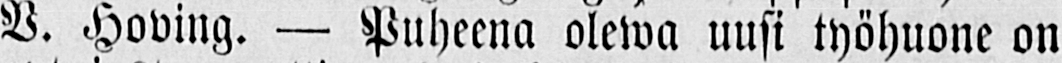V. Hoving. — Puheena olewa uusi työhuone on
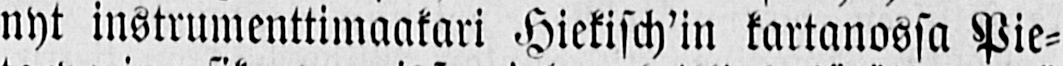nyt instrumenttimaakari Hiekisch'in kartanossa Pie-
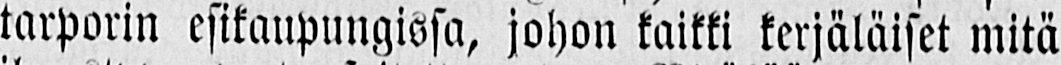tarporin esikaupungissa, johon kaikki kerjäläiset mitä
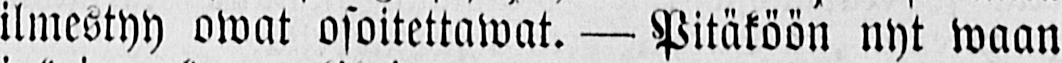ilmestyy owat osoitettawat. — Pitäköön nyt waan
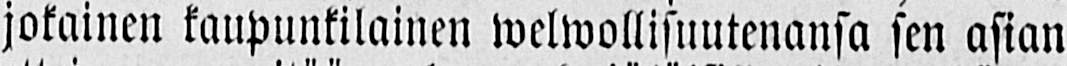jokainen kaupunkilainen welwollisuutenansa sen asian
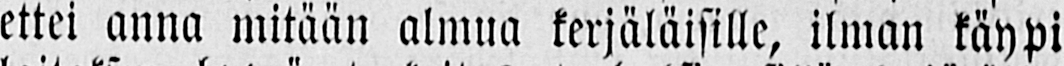ettei anna mitään almua kerjäläisille, ilman käypi
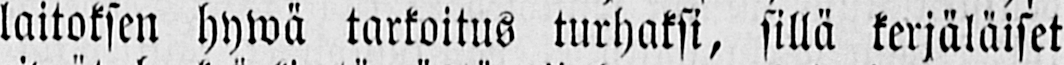laitoksen hywä tarkoitus turhaksi, sillä kerjäläiset
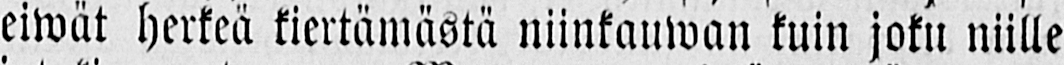eiwät herkeä kiertämästä niinkauwan kuin joku niille
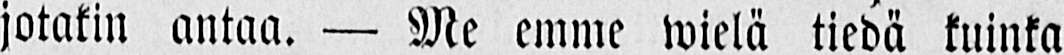jotakin antaa. — Me emme wielä tiedä kuinka
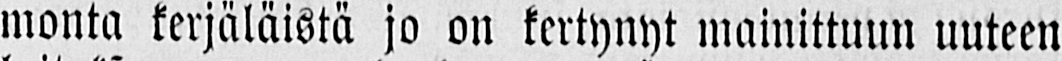monta kerjäläistä jo on kertynyt mainittuun uuteen
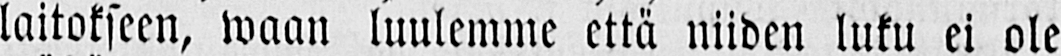laitokseen, waan luulemme että niiden luku ei ole
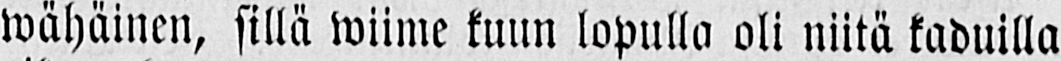wähäinen, sillä wiime kuun lopulla oli niitä kaduilla
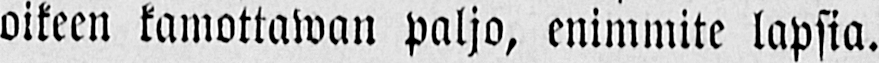oikeen kumottawan paljo, enimmite lapsia.
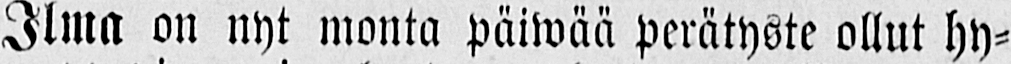Ilma on nyt monta päiwää perätyste ollut hy-
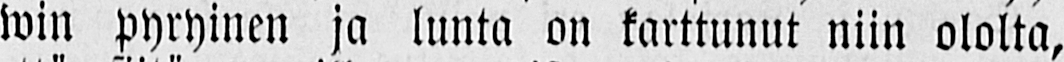win pyryinen ja lunta on karttunut niin ololta,
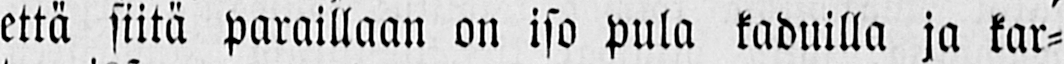että siitä paraillaan on iso pula kaduilla ja kar-
